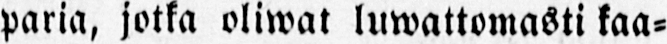paria, jotka oliwat luwattomaöti kaa-
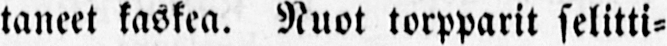taneet kaskea. Nuot torpparit selitti-
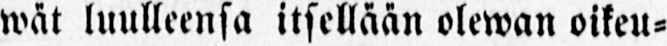wät luulleensa itsellään olewan oikeu-
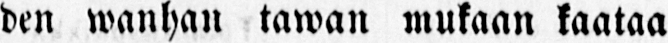den wanhan tawan mukaan kaataa
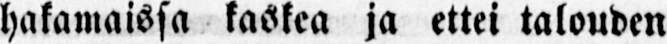hakamaissa kaskea ja ettei talouden
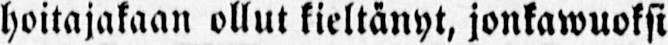hoitajakaan ollut kieltänyt, jonkawuoksi
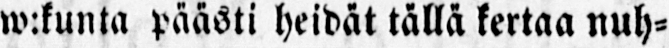w:kunta päästi heidät tällä kertaa nuh-
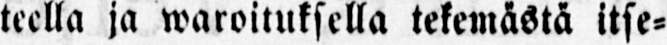teella ja waroituksella tekemästä itse-
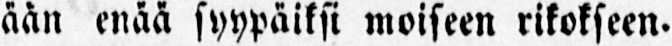ään enää syypäiksi moiseen rikokseen.
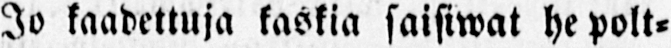Jo kaadettuja kaskia saisiwat he polt-
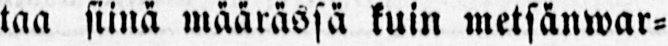taa siinä määrässä kuin metsänwar-
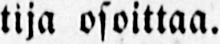tija osoittaa.
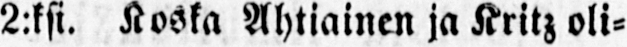2:ksi. Koska Ahtiainen ja Kritz oli-
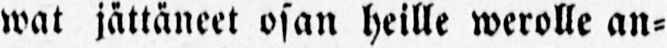wat jättäneet osan heille werolle an-
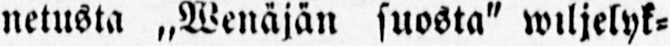netusta „Wenäjän suosta" wlljelyk-
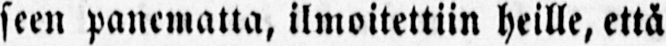seen panematta, ilmoitettiin heille, että
